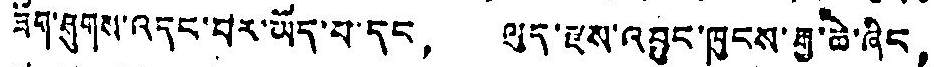ཟོག་ཤུགས་འདང་བར་ཡོད་པ་དང， ལུད་རྫས་འབྱུང་ཁུངས་རྒྱ་ཆེ་ཞིང，
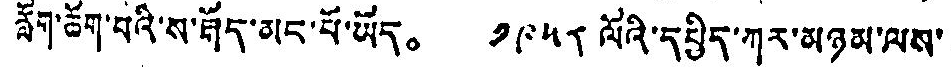རློག་ཆོག་པའི་ས་ཤོད་མང་པོ་ཡོད。 ༡༩༥༨ ལོའི་དཔྱིད་ཀར་མཉམ་ལས་
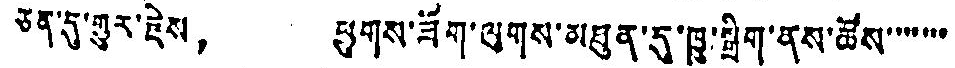ཅན་དུ་གྱུར་རྗེས， ཕྱུགས་ཟོག་ལུགས་མཐུན་དུ་ཁྱུ་སྒྲིག་ནས་ཚོས་་་་་་
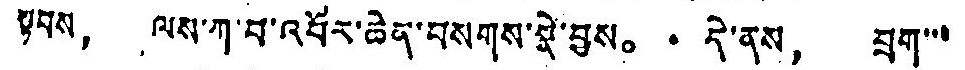སྟབས， ལས་ཀ་བ་འབོར་ཆེན་བསགས་སྣེ་བྱས。 དེ་ནས， བྲག་་་
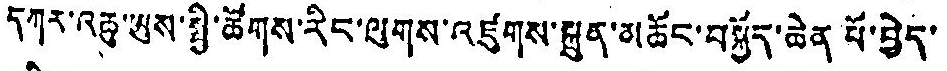དཀར་འཆུ་ཡུས་སྤྱི་ཚོགས་རིང་ལུགས་འཛུགས་སྐྲུན་མཆོང་བསྐྱོད་ཆེན པོ་བྱེད་་
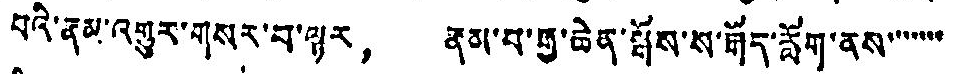པའི་རྣམ་འགྱུར་གསར་བ་ལྟར， རྣམ་པ་རྒྱ་ཆེན་སྒོས་ས་རྒོད་རློག་ནས་་་་་་་
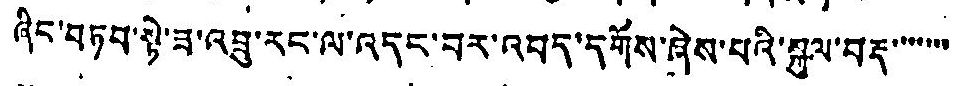ཞིང་བཏབ་སྟེ་ཟ་འབྲུ་རང་ལ་འདང་བར་འབད་དགོས་ཞེས་པའི་སྐུལ་བརྡ་་་་་་་་
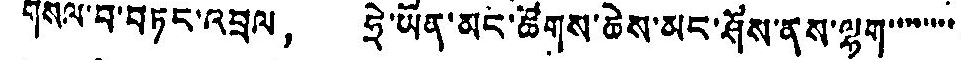གསལ་བ་བཏང་འབྲལ， ཧྲེ་ཡོན་མང་ཚོགས་ཆེས་མང་ཤོས་ནས་ལྷག་་་་་་་་
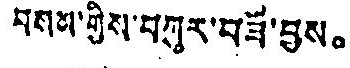བསམ་གྱིས་བཀུར་བཟོ་བྱས。
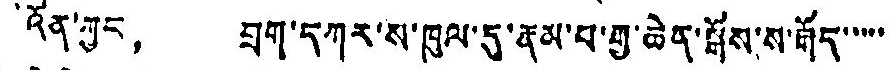འོན་ཀྱང， བྲག་དཀར་ས་ཁུལ་དུ་རྣམ་པ་གྱ་ཆེན་སྒོས་ས་རྒོད་་་་་
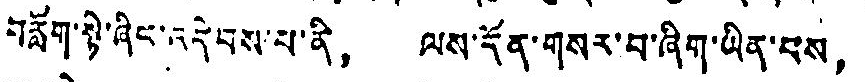བརློག་སྟེ་ཞིང་འདེབས་པ་ནི， ལས་དོན་གསར་བ་ཞིག་ཡིན་པས，
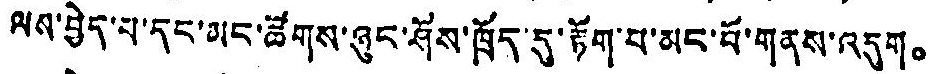ལས་བྱེད་པ་དང་མང་ཚོགས་ཞུང་ཤོས་ཁྲོད་དུ་རྟོག་པ་མང་པོ་གནས་འདུག。
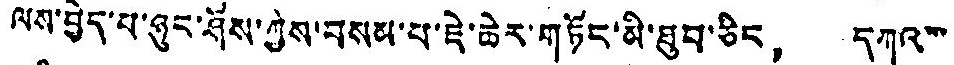ལས་བྱེད་པ་ཉུང་ཤོས་ཀྱིས་བསམ་པ་ཇེ་ཆེར་གཏོང་མི་ཐུབ་ཅིང， དཀའ་་་
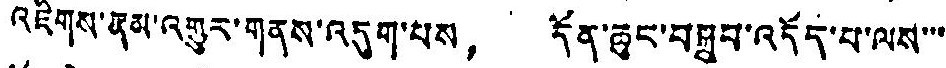འཇིགས་རྣམ་འགྱུར་གནས་འདུག་པས， དོན་ཆུང་བསྒྲུབ་འདོད་པ་ལས་་་་
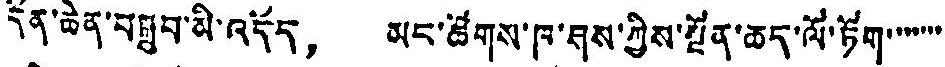དོན་ཆེན་བསྒྲུབ་མི་འདོད， མང་ཚོགས་ཁ་ཤས་ཀྱིས་སྔོན་ཆད་ལོ་ཏོག་་་་་་་
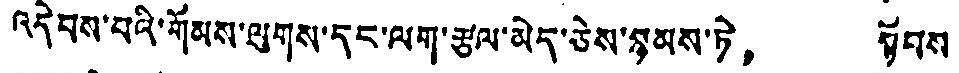འདེབས་པའི་གོམས་ལུགས་དང་ལག་རྩལ་མེད་ཅེས་སྙམས་ཏེ， སྟོབས་
